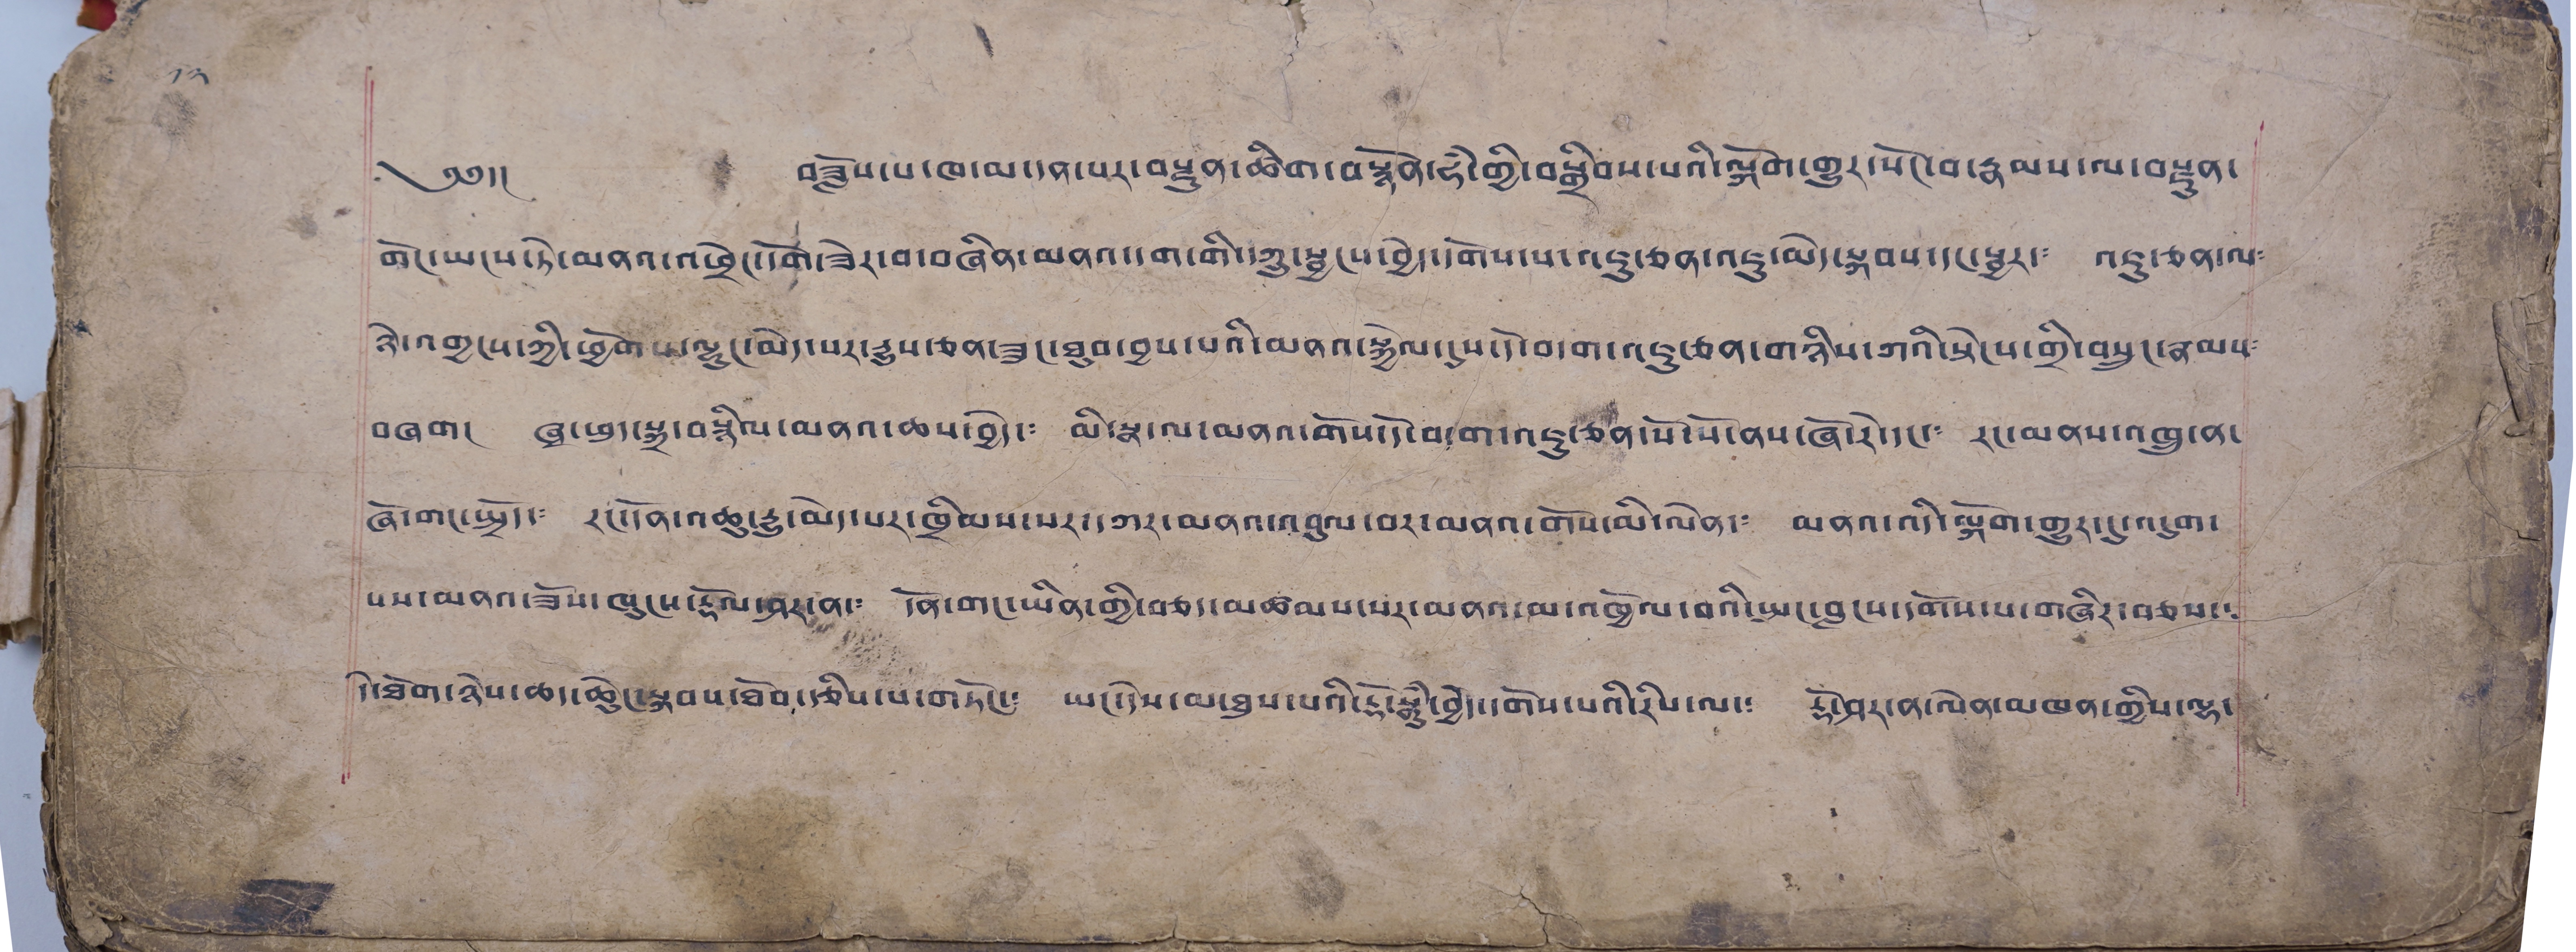༡༢
༄༅།།  བཟློས་པ་ཁ་མ་དན་པར་བརྫུན་ཚིག་བསྙོན་ཧཾ་གྱི་བསྒྲིབས་པའི་ལྐོག་གྱུར་སོང་བ་རྣམས་ལ་བརྫུན་
གོང་ཡངས་ཏེ་མནའ་འཕྲེང་དགོ་ཟེར་བ་བཞིན་མནའ་དག་གི་ཀྲུ་སྦྱངས་བྱེད་དགོས་པ་འཇུ་ཅན་འཇུ་མེད་སྐབས་དང་སྦྱར་༴ འཇུ་ཅན་ལ༴
ཉེ་འགྱངས་ཀྱི་ཕྱོགས་ལྷང་མེད་པར་རྒྱུས་ཅན་ཟུང་ཐུབ་བྱས་པའི་མནའ་སྐྱེལ་དུས་དེ་བདག་འཇུ་ཅན་གཉིས་ཀའི་སྟེངས་གྲི་བསྲུང་རྣམས༴
བཞག། ཞྭ་ཕྲད་སྲ་བསྙིལ་མནའ་ཆས་བྱེད་༴ མི་སྣ་ལ་མནའ་གོས་དེ་བདག་འཇུ་ཅན་སོ་སོ་ནས་ཞོ་རེ་དང་༴ རང་མནས་འཁྲུ་ན་
ཞེ་གང་སྤྲོད་༴ རང་དོན་འཆུ་རྒྱུ་མེད་པར་ཁྲིམས་སར་དཀར་མནའ་འབུལ་བར་མནའ་གོས་མི་ལེན་༴ མནའ་འདི་ལྐོག་གྱུར་དུ་འདུག་
པས་མནའ་ཟོས་ཁུངས་རྡོལ་ཤར་ན་༴ དོན་གང་ཡིན་གྱི་བཅད་མཚམས་པར་མནའ་མ་འབྱོལ་བའི་སྤང་བླངས་དགོས་པ་གཞིར་བཅས་༴
དེ་ཐེག་ཉེས་ཆད་ཆེུང་སྟབས་ཐོབ་རྩིས་པ་གཏོང་༴ ཡང་དེས་མཐུས་པའི་རྡོ་སྣུཾ་བྱེད་དགོས་པའི་རིས་ལ་༴ རྡོ་ཤར་ན་ལེན་མཁན་གྱིས་ལྷ་
